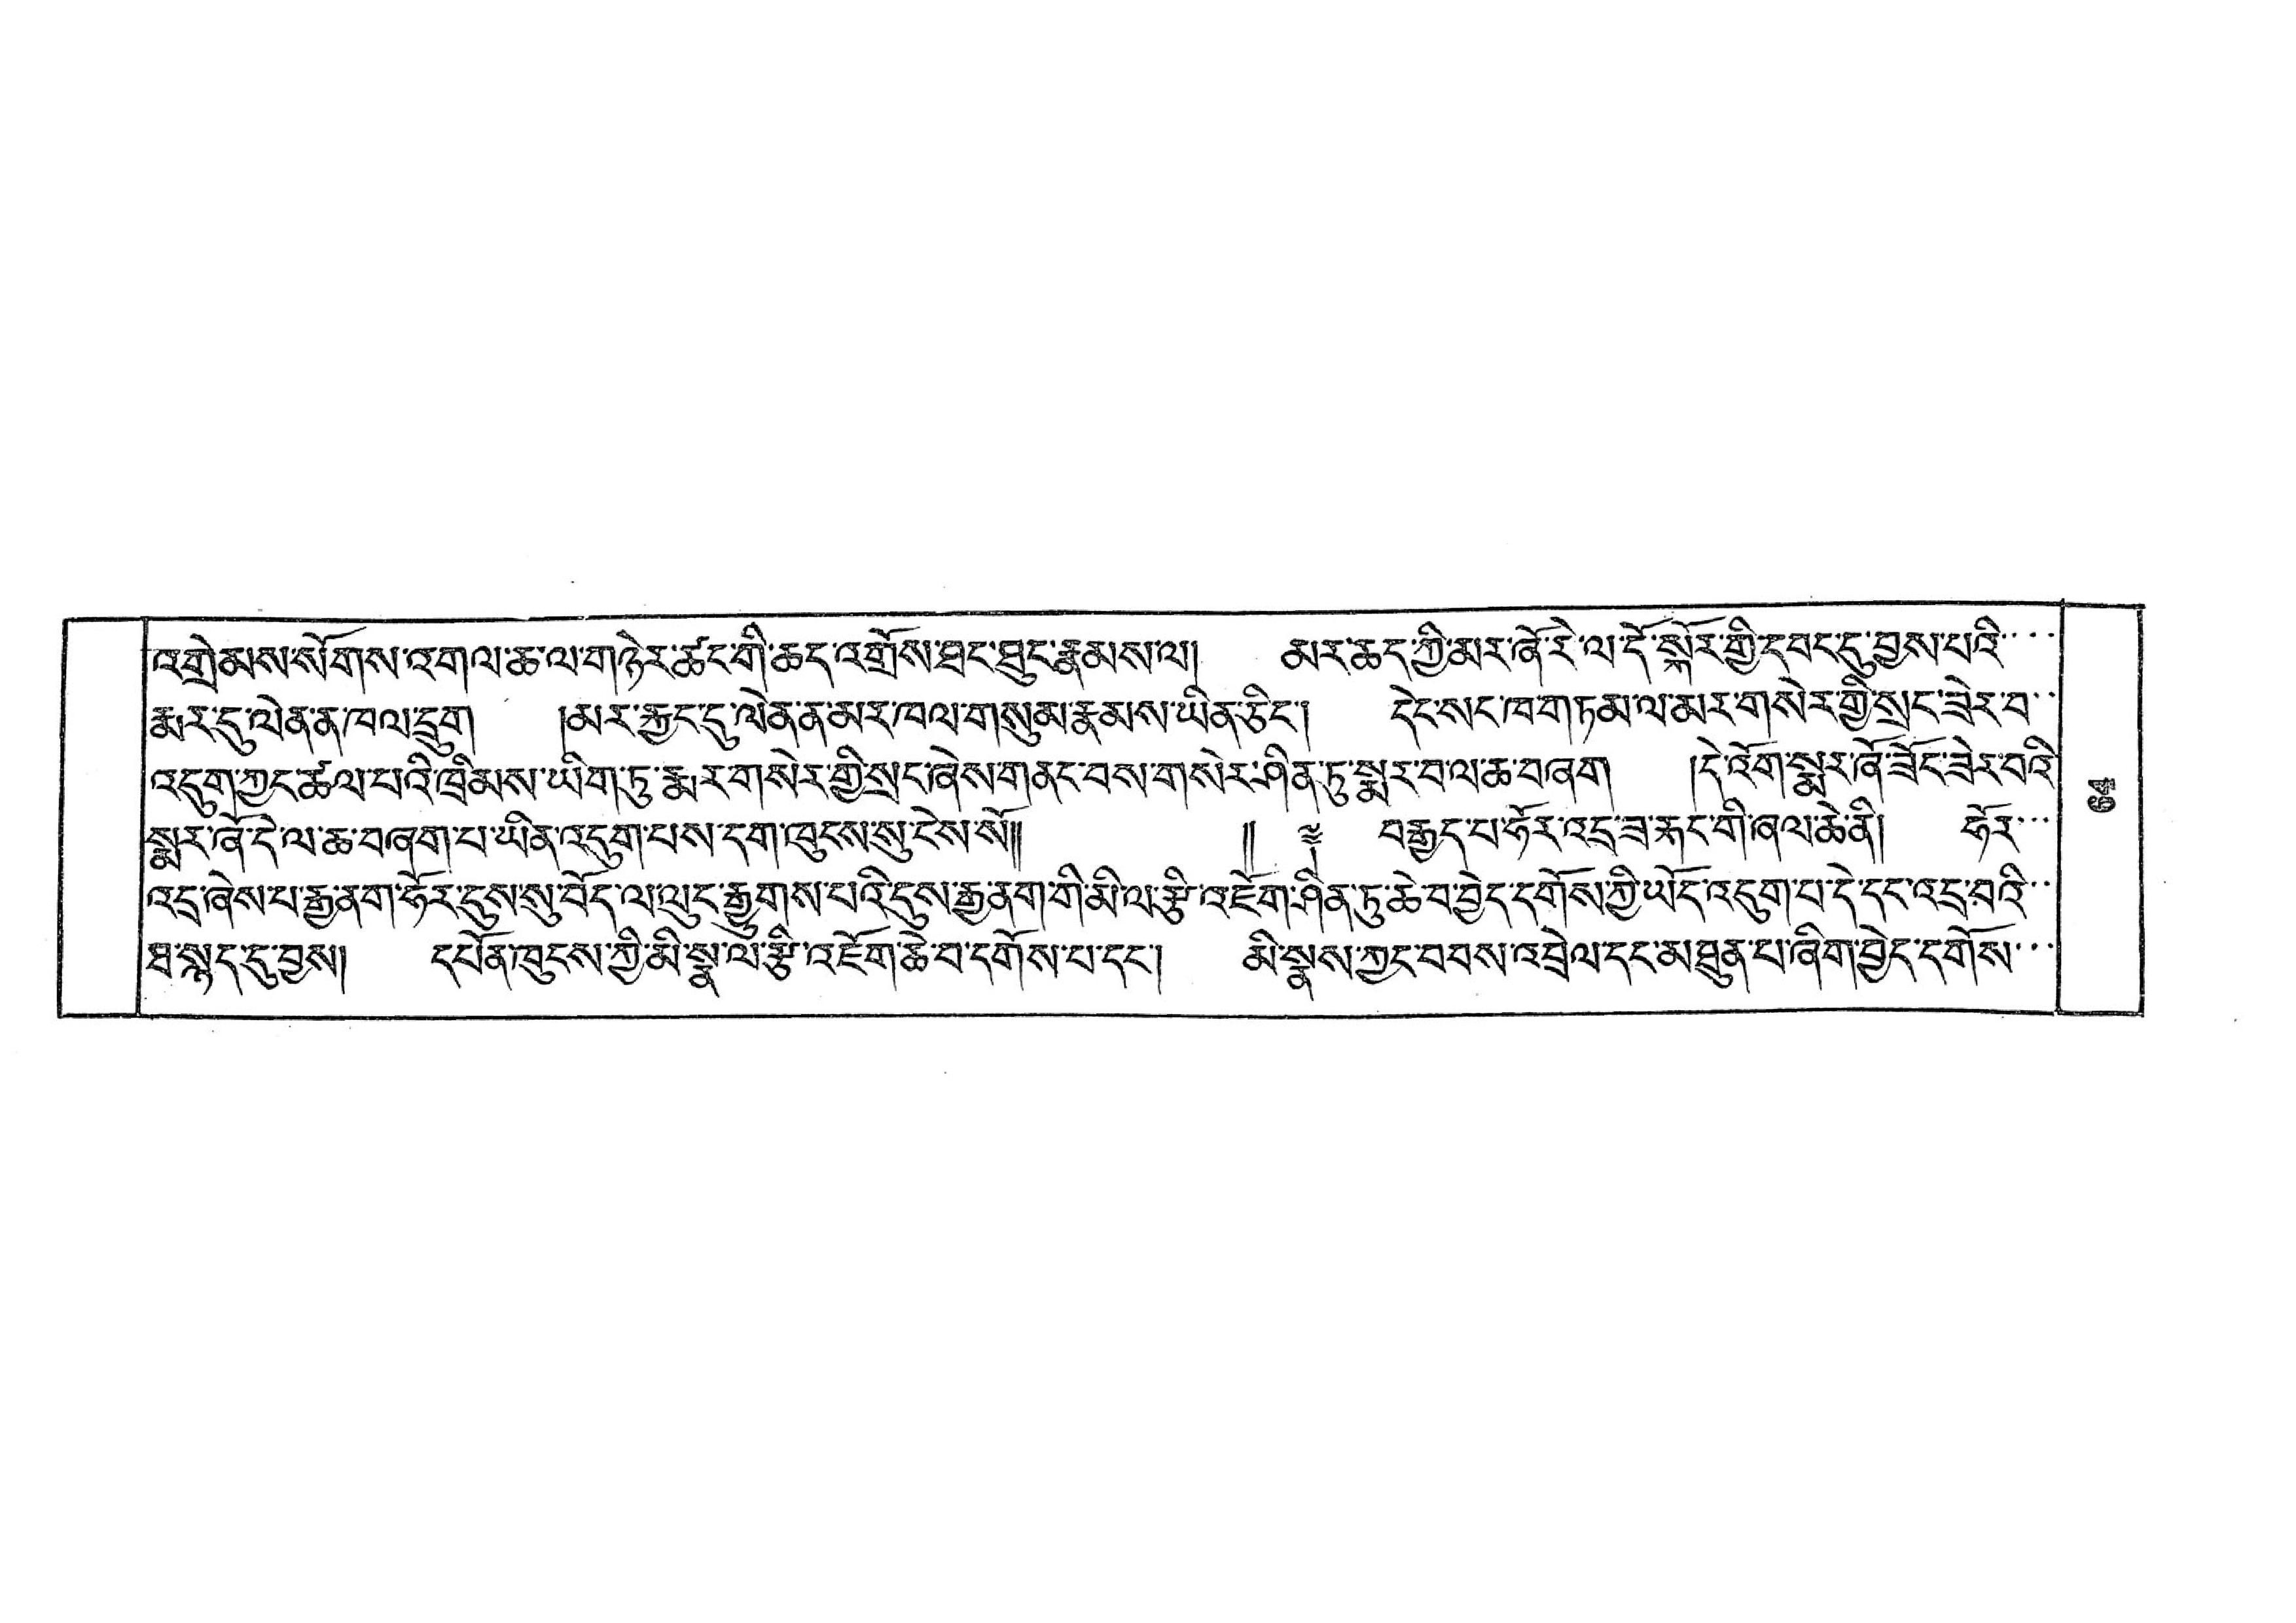འགྲེམས་སོགས་འགལ་ཆ་ལ་གཉེར་ཚང་གི་ཆད་འགྲོས་ཐང་ཐུང་རྣམས་ལ། མར་ཆད་ཀྱི་མར་ཞོ་རེ་ལ་དོ་སྐོར་གྱི་དབང་དུ་བྱས་པའི་་་་
རྨར་དུ་ལེན་ན་ཁལ་དྲུག །མར་རྐྱང་དུ་ལེན་ན་མར་ཁལ་གསུམ་རྣམས་ཡིན་ཅིང་། དེང་སང་ཁ་གཏམ་ལ་མར་གསེར་གྱི་སྲང་ཟེར་བ་་
འདུག་ཀྱང་ཚལ་པའི་ཁྲིམས་ཡིག་ཏུ་རྨར་གསེར་གྱི་སྲང་ཞེས་གནང་བས་གསེར་ཤིན་ཏུ་སྨར་བ་ལ་ཆ་བཞག །དེ་འོག་སྨར་ཞོ་ཟོང་ཟེར་བའི་
སྨར་ཞོ་དེ་ལ་ཆ་བཞག་པ་ཡིན་འདུག་པས་དག་ཁུངས་སུ་ངེས་སོ།།  །། ༈ བརྒྱད་པ་ཧོར་འདྲ་ཟ་རྐང་གི་ཞལ་ཆེ་ནི། ཧོར་་་
འདྲ་ཞེས་པ་རྒྱ་ནག་ཧོར་དུས་སུ་བོད་ལ་ལུང་རྒྱུགས་པའི་དུས་རྒྱ་ནག་གི་མི་ལ་རྩི་འཇོག་ཤིན་ཏུ་ཆེ་བ་བྱེད་དགོས་ཀྱི་ཡོད་འདུག་པ་དེ་དང་འདྲ་བའི་་
ཐ་སྙད་དུ་བྱས། དཔོན་ཁུངས་ཀྱི་མི་སྣ་ལ་རྩི་འཇོག་ཆེ་བ་དགོས་པ་དང་། མི་སྣས་ཀྱང་བབས་འབྲེལ་དང་མཐུན་པ་ཞིག་བྱེད་དགོས་་་
